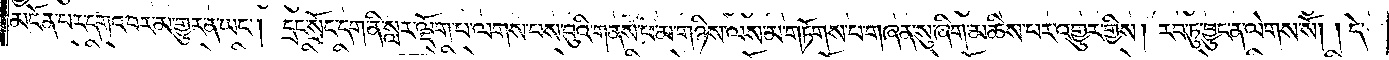མངོན་པར་དགའ་བར་མ་གྱུར་ན་ཡང༌། དྲང་སྲོང་དག་ནི་སླར་ལྡོག་པ་ལགས་པས་བུའི་གནས་ཕ་མ་གཉིས་ལས་མ་གཏོགས་པ་གཞན་སུ་ཞིག་མཆིས་པར་འགྱུར་གྱིས། རབ་ཏུ་བྱུང་ན་ལེགས་སོ། །དེ་
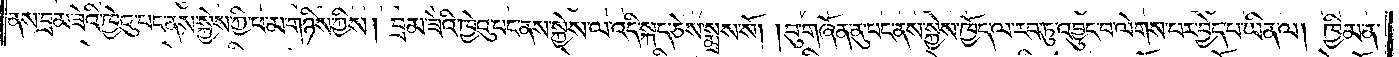ནས་བྲམ་ཟེའི་ཁྱེའུ་པང་ནས་སྐྱེས་ཀྱི་ཕ་མ་གཉིས་ཀྱིས། བྲམ་ཟེའི་ཁྱེའུ་པང་ནས་སྐྱེས་ལ་འདི་སྐད་ཅེས་སྨྲས་སོ། །བུ་གཞོན་ནུ་པང་ནས་སྐྱེས་ཁྱོད་ལ་རབ་ཏུ་འབྱུང་བ་ལེགས་པར་བྱེད་པ་ཡིན་ལ། ཁྱིམ་ན་
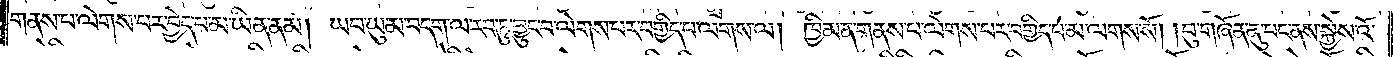གནས་པ་ལེགས་པར་བྱེད་པ་མ་ཡིན་ནམ། ཡབ་ཡུམ་བདག་ལ་རབ་ཏུ་བྱུང་བ་ལེགས་པར་བགྱིད་པ་ལགས་ལ། ཁྱིམ་ན་གནས་པ་ལེགས་པར་བགྱིད་པ་མ་ལགས་སོ། །བུ་གཞོན་ནུ་པང་ནས་སྐྱེས་འོ་
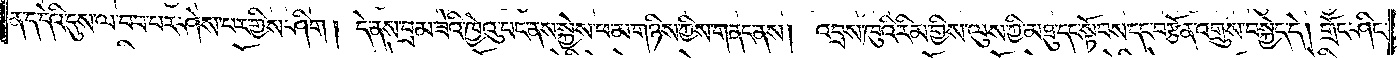ན་ད་དེའི་དུས་ལ་བབ་པར་ཤེས་པར་གྱིས་ཤིག། དེ་ནས་བྲམ་ཟེའི་ཁྱེའུ་པང་ནས་སྐྱེས་ཕ་མ་གཉིས་ཀྱིས་གནང་ནས། འབྲས་ཁུའི་རིམ་གྱིས་ལུས་ཀྱི་མཐུ་དང་སྟོབས་དང་བརྩོན་འགྲུས་བསྐྱེད་དེ། གྲོང་ཤིང་
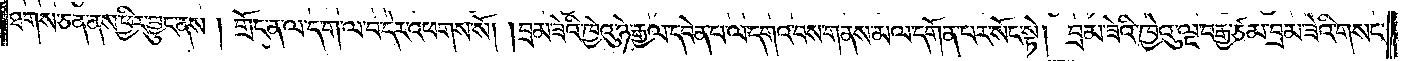ཐགས་ཅན་ནས་ཕྱིར་བྱུང་ནས། གྲོང་ན་ལ་ད་ག་ལ་བ་དེར་འཕགས་སོ། །བྲམ་ཟེའི་ཁྱེའུ་ཉེ་རྒྱལ་དབེན་པ་ལ་དགའ་བས་གནས་མལ་དགོན་པར་སོང་སྟེ། བྲམ་ཟེའི་ཁྱེའུ་ལྔ་བརྒྱ་ཙམ་བྲམ་ཟེའི་གསང་
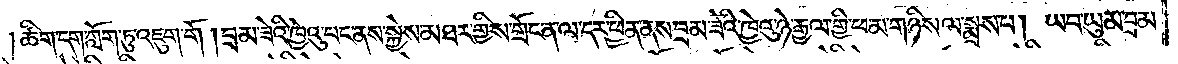ཚིག་དག་ཀློག་ཏུ་འཇུག་གོ །བྲམ་ཟེའི་ཁྱེའུ་པང་ནས་སྐྱེས་མཐར་གྱིས་གྲོང་ན་ལ་དར་ཕྱིན་ནས་བྲམ་ཟེའི་ཁྱེའུ་ཉེ་རྒྱལ་གྱི་ཕ་མ་གཉིས་ལ་སྨྲས་པ། ཡབ་ཡུམ་བྲམ་
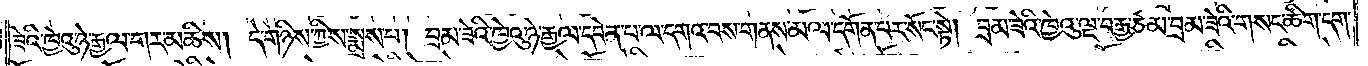ཟེའི་ཁྱེའུ་ཉེ་རྒྱལ་གར་མཆིས། དེ་གཉིས་ཀྱིས་སྨྲས་པ། བྲམ་ཟེའི་ཁྱེའུ་ཉེ་རྒྱལ་དབེན་པ་ལ་དགའ་བས་གནས་མལ་དགོན་པར་སོང་སྟེ། བྲམ་ཟེའི་ཁྱེའུ་ལྔ་བརྒྱ་ཙམ་བྲམ་ཟེའི་གསང་ཚིག་དག་
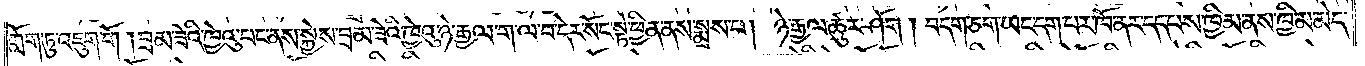ཀློག་ཏུ་འཇུག་གོ །བྲམ་ཟེའི་ཁྱེའུ་པང་ནས་སྐྱེས་བྲམ་ཟེའི་ཁྱེའུ་ཉེ་རྒྱལ་ག་ལ་བ་དེར་སོང་སྟེ་ཕྱིན་ནས་སྨྲས་པ། ཉེ་རྒྱལ་ཚུར་ཤོག །བདག་ཅག་ཡང་དག་པར་ཁོ་ནར་དད་པས་ཁྱིམ་ནས་ཁྱིམ་མེད་
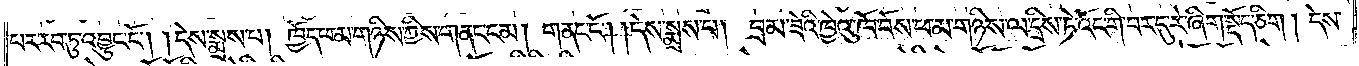པར་རབ་ཏུ་འབྱུང་ངོ༌། །དེས་སྨྲས་པ། ཁྱོད་ཕ་མ་གཉིས་ཀྱིས་གནང་ངམ། གནང་ངོ༌། །དེས་སྨྲས་པ། བྲམ་ཟེའི་ཁྱེའུ་ཁོ་བོས་ཕ་མ་གཉིས་ལ་དྲིས་ཏེ་འོང་གི་བར་དུ་རེ་ཞིག་སྡོད་ཅིག །དེས་
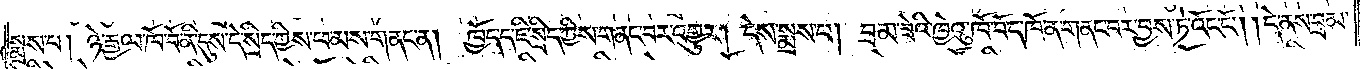སྨྲས་པ། ཉེ་རྒྱལ་ཁོ་བོ་ནི་དུས་དེ་སྲིད་ཀྱིས་ཕ་མས་གནང་ན། ཁྱོད་ད་ཇི་སྲིད་ཀྱིས་གནང་བར་འགྱུར། དེས་སྨྲས་པ། བྲམ་ཟེའི་ཁྱེའུ་ཁོ་བོ་ད་ཁོ་ན་གནང་བར་བྱས་ཏེ་འོང་ངོ༌། །དེ་ནས་བྲམ་
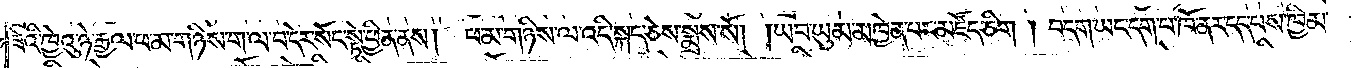ཟེའི་ཁྱེའུ་ཉེ་རྒྱལ་ཕ་མ་གཉིས་ག་ལ་བ་དེར་སོང་སྟེ་ཕྱིན་ནས། ཕ་མ་གཉིས་ལ་འདི་སྐད་ཅེས་སྨྲས་སོ། །ཡབ་ཡུམ་མཁྱེན་པར་མཛོད་ཅིག །བདག་ཡང་དག་པ་ཁོ་ནར་དད་པས་ཁྱིམ་
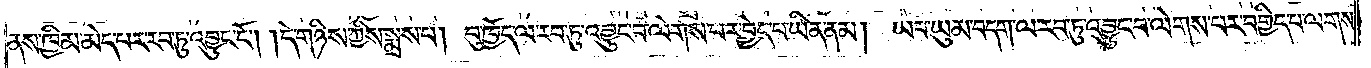ནས་ཁྱིམ་མེད་པར་རབ་ཏུ་འབྱུང་ངོ༌། །དེ་གཉིས་ཀྱིས་སྨྲས་པ། བུ་ཁྱོད་ལ་རབ་ཏུ་འབྱུང་བ་ལེགས་པར་བྱེད་པ་ཡིན་ནམ། ཡབ་ཡུམ་བདག་ལ་རབ་ཏུ་འབྱུང་བ་ལེགས་པར་བགྱིད་པ་ལགས་
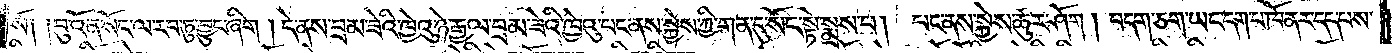སོ༑༑ བུའོ་ན་སོང་ལ་རབ་ཏུ་བྱུང་ཞིག །དེ་ནས་བྲམ་ཟེའི་ཁྱེའུ་ཉེ་རྒྱལ་བྲམ་ཟེའི་ཁྱེའུ་པང་ནས་སྐྱེས་ཀྱི་གན་དུ་སོང་སྟེ་སྨྲས་པ། པང་ནས་སྐྱེས་ཚུར་ཤོག། བདག་ཅག་ཡང་དག་པ་ཁོ་ནར་དད་པས་
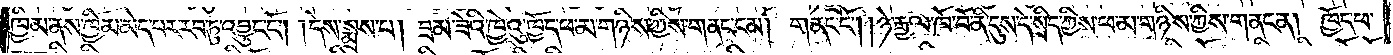ཁྱིམ་ནས་ཁྱིམ་མེད་པར་རབ་ཏུ་འབྱུང་ངོ༌། །དེས་སྨྲས་པ། བྲམ་ཟེའི་ཁྱེའུ་ཁྱོད་ཕ་མ་གཉིས་ཀྱིས་གནང་ངམ། གནང་ངོ༌། །ཉེ་རྒྱལ་ཁོ་བོ་ནི་དུས་དེ་སྲིད་ཀྱིས་ཕ་མ་གཉིས་ཀྱིས་གནང་ན། ཁྱོད་ཕ་
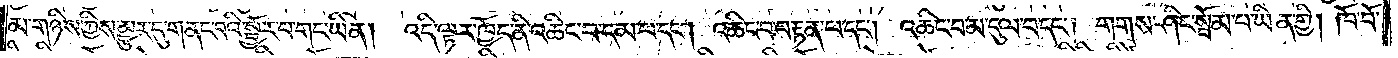མ་གཉིས་ཀྱིས་མྱུར་དུ་གནང་བའི་སྦྱོར་པ་གང་ཡིན། འདི་ལྟར་ཁྱོད་ནི་འཆིང་བ་དམ་པ་དང༌། འཆིང་བ་བརྟན་པ་དང༌། འཆིང་བ་མ་དུལ་བ་དང༌། གགས་ཤིང་སྦོམ་པ་ཡིན་གྱི། ཁོ་བོ་
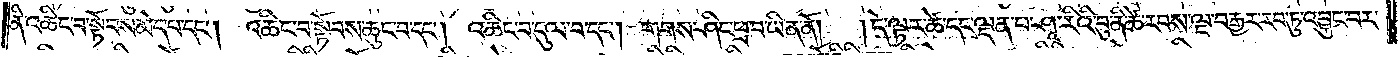ནི་འཆིང་བ་སྟོབས་མེད་པ་དང༌། འཆིང་བ་སྟོབས་ཆུང་བ་དང༌། འཆིང་བ་དུལ་བ་དང༌། གགས་ཤིང་ཕྲ་བ་ཡིན་ནོ༎ དེ་ལྟར་ཚེ་དང་ལྡན་པ་ཤཱ་རིའི་བུ་ནི་ཚེ་རབས་ལྔ་བརྒྱར་རབ་ཏུ་འབྱུང་བར་
